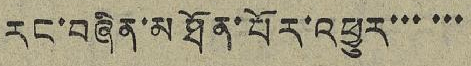རང་བཞིན་མཐོན་པོར་འཕྱུར་་་་་་
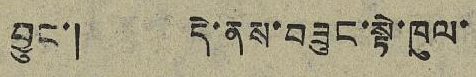བྱུང་། དེ་ནས་བཟུང་སྟེ་ཁུལ་
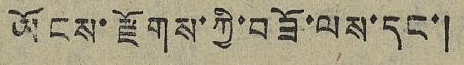ཡོངས་རྫོགས་ཀྱི་བཟོ་ལས་དང་།
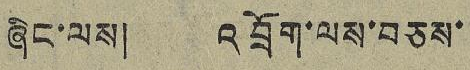ཞིང་ལས། འབྲོག་ལས་བཅས་
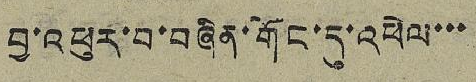བྱ་འཕུར་བ་བཞིན་གོང་དུ་འཕེལ་་་
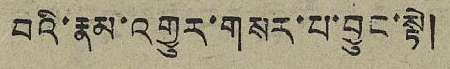བའི་རྣམ་འགྱུར་གསར་པ་བྱུང་སྟེ།
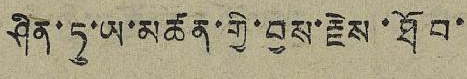ཤིན་ཏུ་ཡ་མཚན་གྱི་བྱས་རྗེས་ཐོབ་
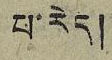པ་རེད།
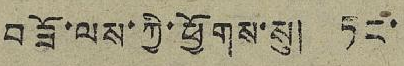བཟོ་ལས་ཀྱི་ཕྱོགས་སུ། ཏང་
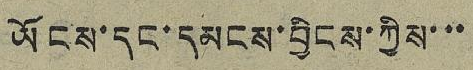ཡོངས་དང་དམངས་བྱིངས་ཀྱིས་་་
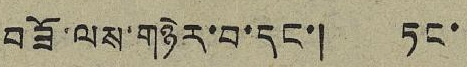བཟོ་ལས་གཉེར་བ་དང་། ཏང་
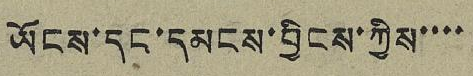ཡོངས་དང་དམངས་བྱིངས་ཀྱིས་་་་
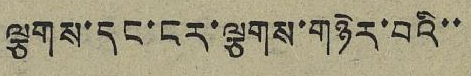ལྕགས་དང་ངར་ལྕགས་གཉེར་བའི་་
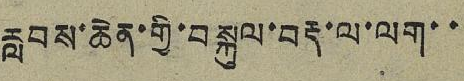རླབས་ཆེན་གྱི་བསྐུལ་བརྡ་ལ་ལག་་
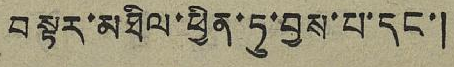བསྟར་མཐིལ་ཕྱིན་ཏུ་བྱས་པ་དང་།
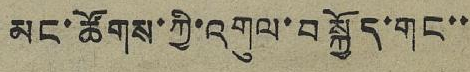མང་ཐོགས་ཀྱི་འགུལ་བསྐྱོད་གང་་
